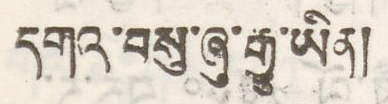དགའ་བསུ་ཞུ་རྒྱུ་ཡིན།
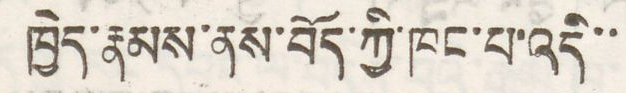ཁྱེད་རྣམས་ནས་བོད་ཀྱི་ཁང་པ་འདི་་
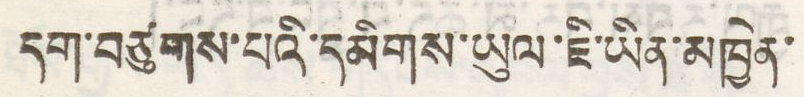དག་བཙུགས་པའི་དམིགས་ཡུལ་ཇི་ཡིན་མཁྱེན་
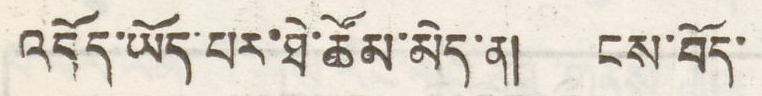འདོད་ཡོད་པར་ཐེ་ཚོམ་མེད་ན། ངས་བོད་
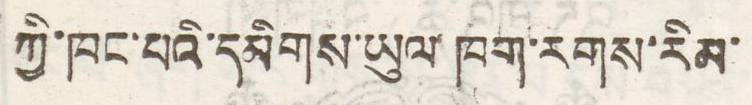ཀྱི་ཁང་པའི་དམིགས་ཡུལ་ཁག་རགས་རིམ་
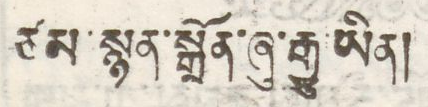ཙམ་སྙན་སྒྲོན་ཞུ་རྒྱུ་ཡིན།
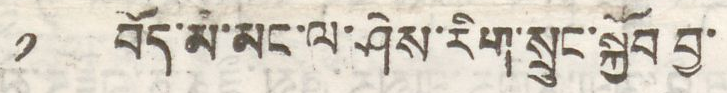༡ བོད་མི་མང་ལ་ཤེས་རིག་སྲུང་སྐྱོབ བྱ་
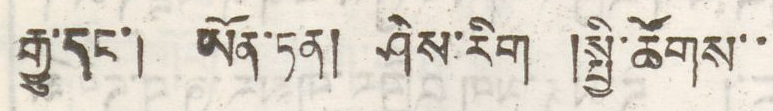རྒྱུ་དང་། ཡོན་ཏན། ཤེས་རིག །སྤྱི་ཚོགས་་
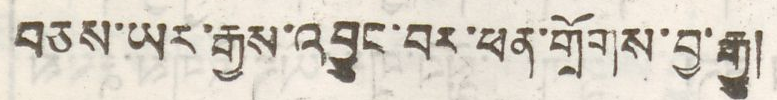བཅས་ཡར་རྒྱས་འབྱུང་བར་ཕན་གྲོགས་བྱ་རྒྱུ།
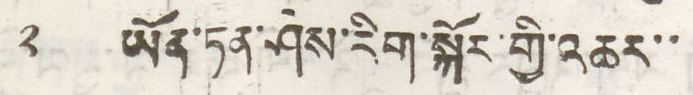༢ ཡོན་ཏན་ཤེས་རིག་སྐོར་གྱི་འཆར་་
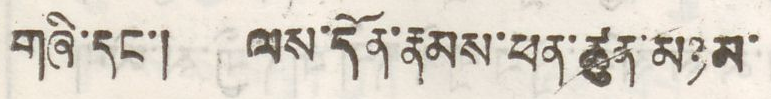གཞི་དང་། ལས་དོན་རྣམས་ཕན་ཚུན་མཉམ་
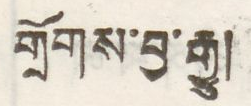གྲོགས་བྱ་རྒྱུ།
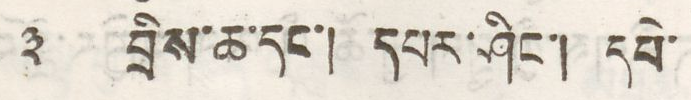༣ བྲིས་ཆ་དང་། དཔར་ཤིང་། དཔེ་
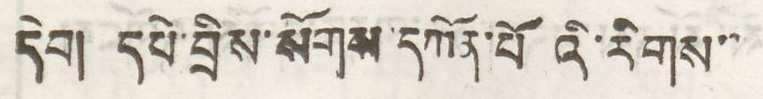དེབ། དཔེ་བྲིས་སོགས་དཀོན་པོའི་རིགས་་
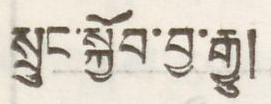སྲུང་སྐྱོབ་བྱ་རྒྱུ།
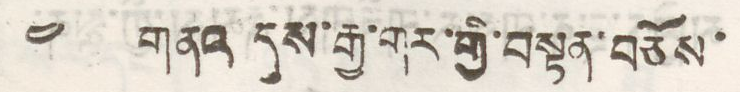༤ གནའ དུས་རྒྱ་གར་གྱི་བསྟན་བཅོས་
